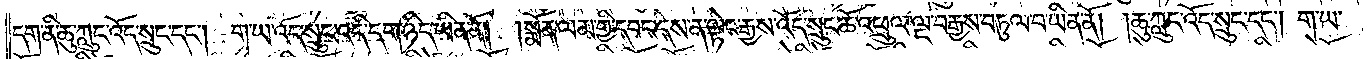དག་ནི་ཆུ་ཀླུང་འོད་སྲུང་དང༌། ག་ཡ་འོད་སྲུང་འདི་དག་ཉིད་ཡིན་ནོ། །སྨོན་ལམ་གྱི་དབང་དེས་ན་ལྟེང་རྒྱས་འོད་སྲུང་ཆོ་འཕྲུལ་ལྔ་བརྒྱས་བཏུལ་བ་ཡིན་ནོ། །ཆུ་ཀླུང་འོད་སྲུང་དང༌། ག་ཡ་
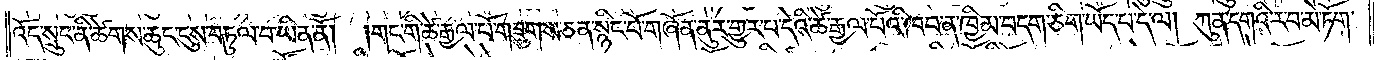འོད་སྲུང་ནི་ཚེགས་ཆུང་དུས་བཏུལ་བ་ཡིན་ནོ། །གང་གི་ཚེ་རྒྱལ་པོ་གཟུགས་ཅན་སྙིང་པོ་གཞོན་ནུར་གྱུར་པ་དེའི་ཚེ་རྒྱལ་པོའི་ཁབ་ན་ཁྱིམ་བདག་ཅིག་ཡོད་པ་དེ་ལ། ཀུན་དགའི་ར་བ་མེ་ཏོག་
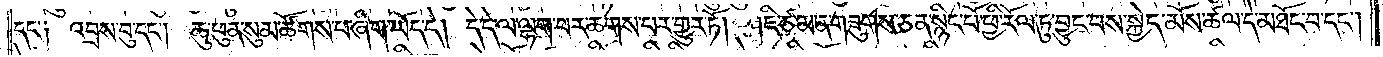དང་༑ འབྲས་བུ་དང༌། ཆུ་ཕུན་སུམ་ཚོགས་པ་ཞིག་ཡོད་དེ། དེ་དེ་ལ་ལྷག་པར་ཆགས་པར་གྱུར་ཏོ། །ཇི་ཙམ་ན་གཟུགས་ཅན་སྙིང་པོ་ཕྱི་རོལ་ཏུ་བྱུང་བས་སྐྱེད་མོས་ཚལ་དེ་མཐོང་བ་དང༌།
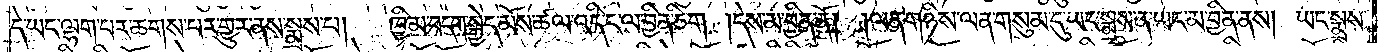དེ་ཡང་ལྷག་པར་ཆགས་པར་གྱུར་ནས་སྨྲས་པ། ཁྱིམ་བདག་སྐྱེད་མོས་ཚལ་འདི་ང་ལ་བྱིན་ཅིག །དེས་མ་བྱིན་ནོ། །ལན་གཉིས་ལན་གསུམ་དུ་ཡང་སྨྲས་ན་ཡང་མ་བྱིན་ནས། ཡང་སྨྲས་
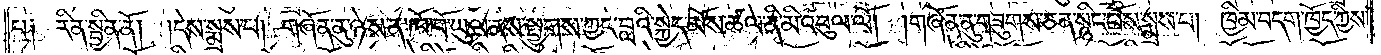པ༑ རིན་སྦྱིན་ནོ། །དེས་སྨྲས་པ། གཞོན་ནུ་ཉེས་ན་ཁོ་བོ་ཡུལ་ནས་སྤྱུགས་ཀྱང་བླའི་སྐྱེད་མོས་ཚལ་ནི་མི་འབུལ་ལོ། །གཞོན་ནུ་གཟུགས་ཅན་སྙིང་པོས་སྨྲས་པ། ཁྱིམ་བདག་ཁྱོད་ཀྱིས་
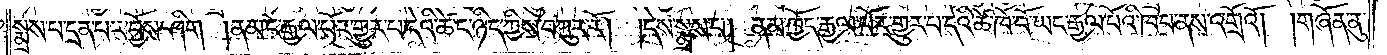སྨྲས་པ་དྲན་པར་བྱོས་ཤིག །ནམ་ང་རྒྱལ་པོར་གྱུར་པ་དེའི་ཚེ་ང་ཉིད་ཀྱིས་བཀུར་རོ། །དེས་སྨྲས་པ། ནམ་ཁྱོད་རྒྱལ་པོར་གྱུར་པ་དེའི་ཚེ་ཁོ་བོ་ཡང་རྒྱལ་པོའི་ཁབ་ནས་འགྲོའོ། །གཞོན་ནུ་
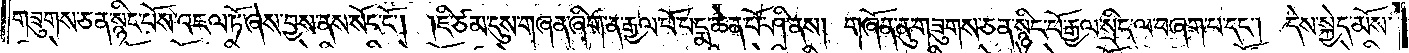གཟུགས་ཅན་སྙིང་པོས་འཇལ་ཏོ་ཞེས་བྱས་ནས་སོང་ངོ༌། །ཇི་ཙམ་དུས་གཞན་ཞིག་ན་རྒྱལ་པོ་པདྨ་ཆེན་པོ་ཤི་ནས། གཞོན་ནུ་གཟུགས་ཅན་སྙིང་པོ་རྒྱལ་སྲིད་ལ་བཞག་པ་དང༌། དེས་སྐྱེད་མོས་
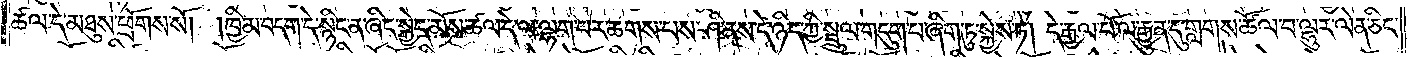ཚལ་དེ་མཐུས་ཕྲོགས་སོ། །ཁྱིམ་བདག་དེ་སྙིང་ན་ཞིང་སྐྱེད་མོས་ཚལ་དེ་ལ་ལྷག་པར་ཆགས་པས་ཤི་ནས་དེ་ཉིད་ཀྱི་སྦྲུལ་གདུག་པ་ཞིག་ཏུ་སྐྱེས་ཏེ། དེ་རྒྱལ་པོ་ལ་རྒྱུན་དུ་གླགས་ཚོལ་བ་ལྷུར་ལེན་ཅིང་
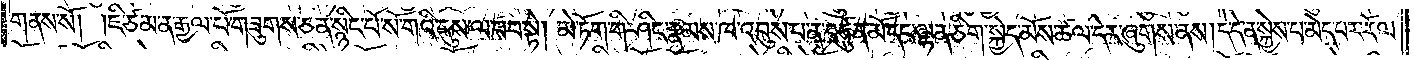གནས་སོ། །ཇི་ཙམ་ན་རྒྱལ་པོ་གཟུགས་ཅན་སྙིང་པོ་སོ་གའི་དུས་ལབ་སྟེ། མེ་ཏོག་གི་ཤིང་རྣམ་ཁ་འབུས་པ་ན་བཙུན་མོ་དང་ལྷན་ཅིག་སྐྱེད་མོས་ཚལ་དེར་ཞུགས་ནས། དེ་དེ་ན་སྐྱེས་པ་མེད་པར་རོལ་
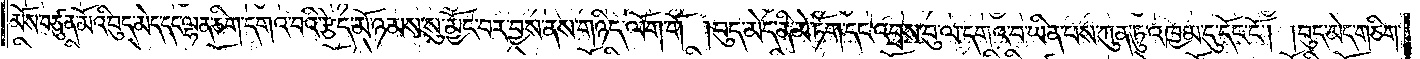མོས་བཙུན་མོའི་བུད་མེད་དང་ལྷན་ཅིག་དགའ་བའི་རྩེད་མོ་ཉམས་སུ་མྱོང་བར་བྱས་ནས་གཉིད་ལོག་གོ །བུད་མེད་ནི་མེ་ཏོག་དང་འབྲས་བུ་ལ་དགའ་བ་ཡིན་པས་ཀུན་ཏུ་འཁྱམ་དུ་དོང་ངོ༌། །བུད་མེད་གཅིག་
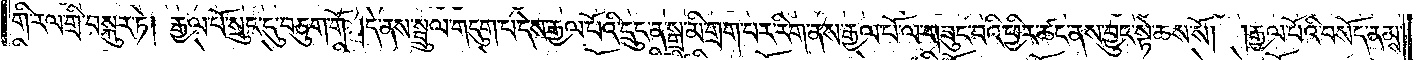གི་རལ་གྲི་བསྐུར་ཏེ། རྒྱལ་པོ་སྲུང་དུ་བཅུག་གོ །དེ་ནས་སྦྲུལ་གདུག་པ་དེས་རྒྱལ་པོའི་དྲུང་ན་སྒྲ་མི་གྲག་པར་རིག་ནས་རྒྱལ་པོ་ལ་གཟུང་བའི་ཕྱིར་ཚང་ནས་བྱུང་སྟེ་ཆས་སོ། །རྒྱལ་པོའི་བསོད་ནམས་
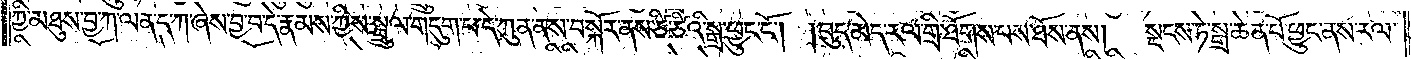ཀྱི་མཐུས་བྱ་ཀ་ལན་ད་ཀ་ཞེས་བྱ་བ་དེ་རྣམས་ཀྱིས་སྦྲུལ་གདུག་པ་དེ་ཀུན་ནས་བསྐོར་ནས་ཙི་ཙིའི་སྒྲ་ཕྱུང་ངོ༌། །བུད་མེད་རལ་གྲི་ཐོགས་པས་ཐོས་ནས།<gap>སྡངས་ཏེ་སྒྲ་ཆེན་པོ་ཕྱུང་ནས་རལ་
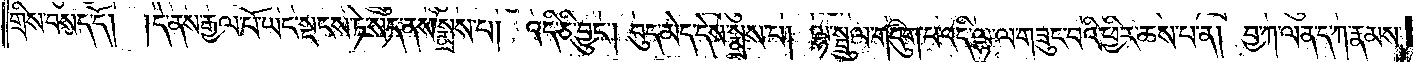གྲིས་བསད་དོ། །དེ་ནས་རྒྱལ་པོ་ཡང་སྡངས་ཏེ་སད་ནས་སྨྲས་པ། འདི་ཅི་བྱུང༌། བུད་མེད་དེས་སྨྲས་པ། ལྷ་སྦྲུལ་གདུག་པ་འདི་ལྷ་ལ་གཟུང་བའི་ཕྱིར་ཆས་པ་ན། བྱ་ཀ་ལན་ད་ཀ་རྣམས་
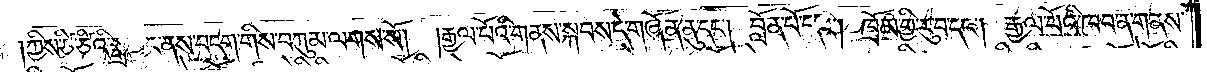ཀྱིས་ཙི་ཙིའི་སྒྲ་ཕྱུང་ནས་བདག་གིས་བཀུམ་ལགས་སོ། །རྒྱལ་པོའི་གནས་སྐབས་དེ་གཞོན་ནུ་དང༌། བློན་པོ་དང༌། ཁྲོམ་གྱི་རུ་བ་དང༌། རྒྱལ་པོའི་ཁབ་ན་གནས་
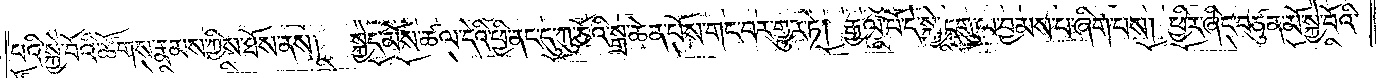པའི་སྐྱེ་བོའི་ཚོགས་རྣམས་ཀྱིས་ཐོས་ནས།  སྐྱེད་མོས་ཚལ་དེའི་ཕྱི་ནང་དུ་ཀུ་ཅོའི་སྒྲ་ཆེན་པོས་གང་བར་གྱུར་ཏེ། རྒྱལ་པོ་དེ་སྐྱེ་དགུ་ལ་བྱམས་པ་ཞིག་པས། ཕྱིར་ཞིང་བཙུན་མོ་སྐྱེ་བོའི་
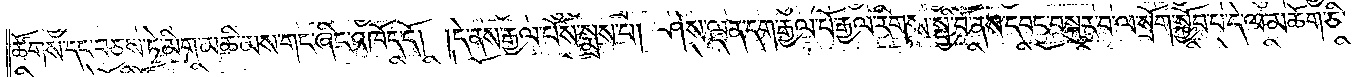ཚོགས་དང་བཅས་ཏེ་མིག་མཆི་མས་གང་ཞིང་འཁོད་དོ། །དེ་ནས་རྒྱལ་པོས་སྨྲས་པ། ཤེས་ལྡན་དག་རྒྱལ་པོ་རྒྱལ་རིགས་སྤྱི་བོ་ནས་དབང་བསྐུར་བ་ལ་སྲོག་སྐྱོབ་པ་དེ་ལ་མཆོག་ཅི་
